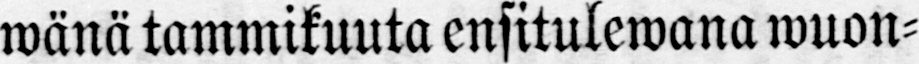wänä tammikuuta ensitulewana wuon-
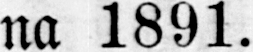na 1891.
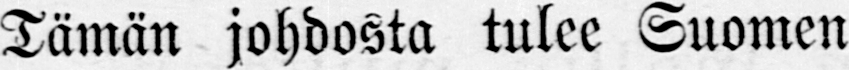Tämän johdosta tulee Suomen
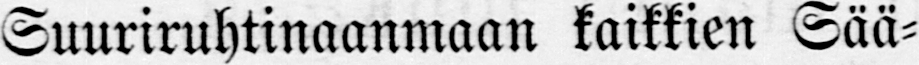Suuriruhtinaanmaan kaikkien Sää-
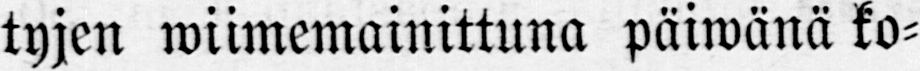tyjen wiimemainittuna päiwänä ko-
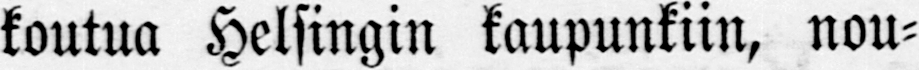koutua Helsingin kaupunkiin, nou-
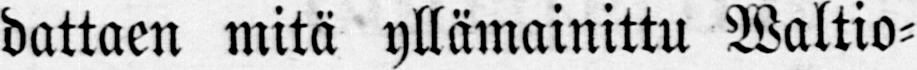dattaen mitä yllämainittu Waltio-
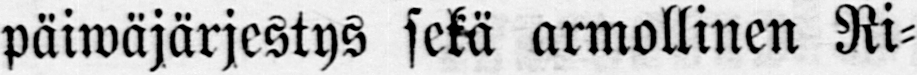päiwäjärjestys sekä armollinen Ri-
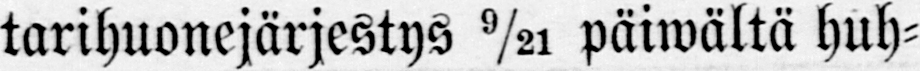tarihuonejärjestys 9/21 päiwältä huh-
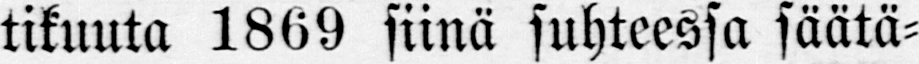tikuuta 1869 siinä suhteessa säätä-
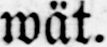wät.
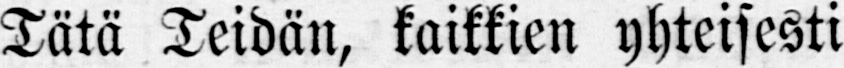Tätä Teidän, kaikkien yhteisesti
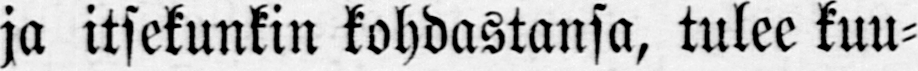ja itsekunkin kohdastansa, tulee kuu-
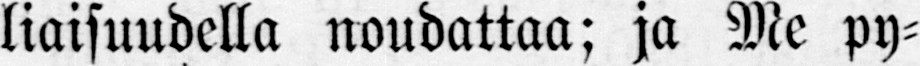liaisuudella noudattaa; ja Me py-
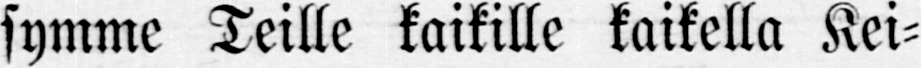symme Teille kaikille kaikella Kei-
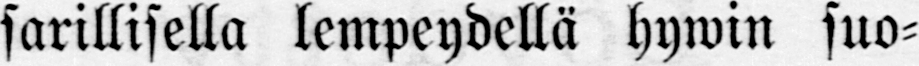sarillisella lempeydellä hywin suo-
